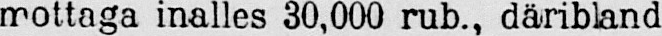mottaga inalles 30,000 rub., däribland
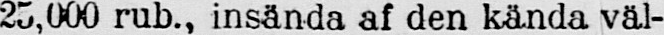25,000 rub., insända af den kända väl-
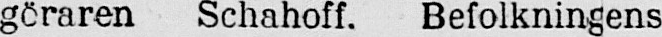göraren Schahoff. Befolkningens
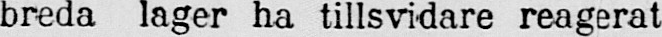breda lager ha tillsvidare reagerat
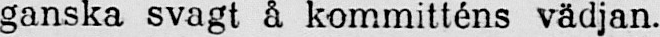ganska svagt å kommitténs vädjan.
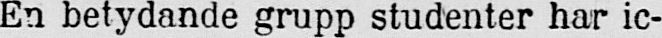En betydande grupp studenter har ic-
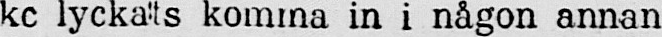ke lyckats komma in i någon annan
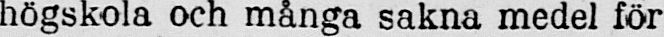högskola och många sakna medel för
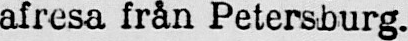afresa från Petersburg.
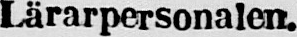Lärarpersonalen.
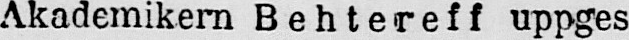Akademikern B e h t e r e f f uppges
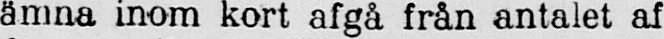ämna inom kort afgå från antalet af
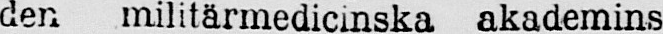den militärmedicinska akademins
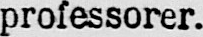professorer.
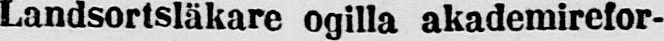Landsortsläkare ogilla akademirefor-
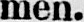men.
